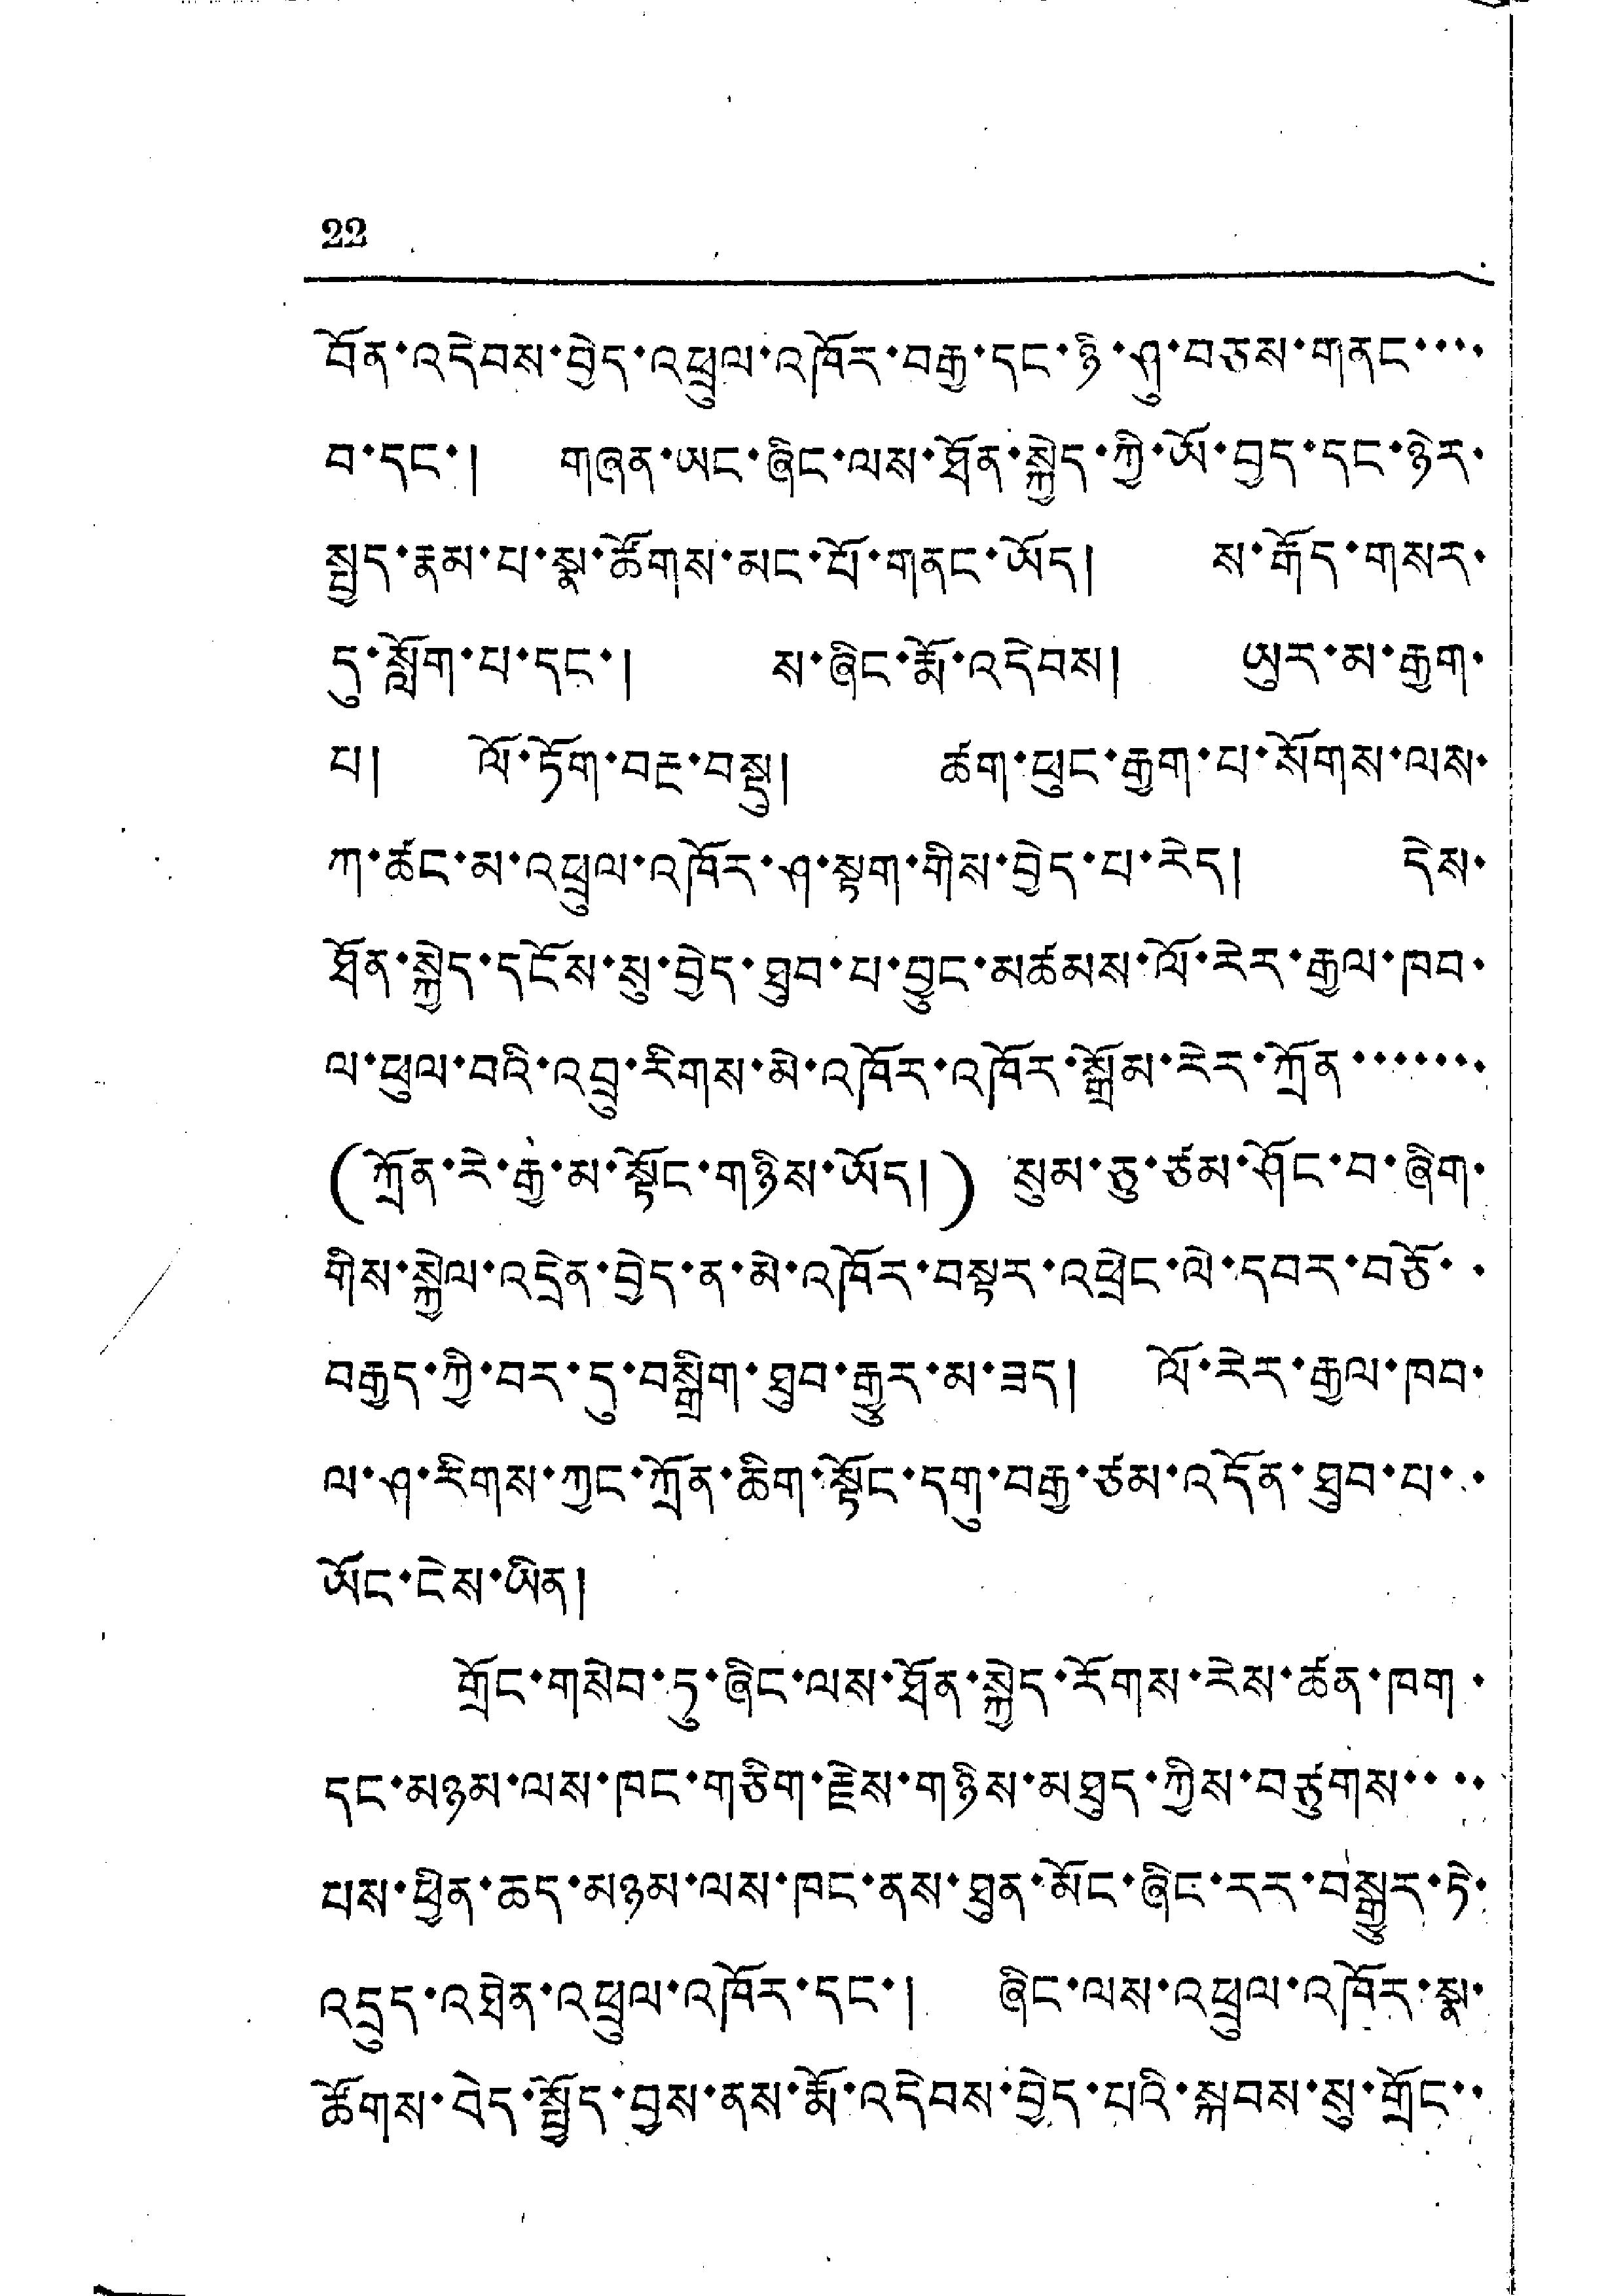22
བོན་འདེབས་བྱེད་འཕྲུལ་འཁོར་བརྒྱ་དང་ཉི་ཤུ་བཅས་གནང་་་་
བ་དང་། གཞན་ཡང་ཞིང་ལས་ཐོན་སྐྱེད་ཀྱི་ཡོ་བྱད་དང་ཉེར་
སྤྱད་རྣམ་པ་སྣ་ཚོགས་མང་པོ་གནང་ཡོད། ས་རྒོད་གསར་
དུ་སློག་པ་དང་། ས་ཞིང་རྨོ་འདེབས། ཡུར་མ་རྒྱུག་
པ། ལོ་ཏོག་བརྔ་བསྟུ། ཚག་ཕུང་རྒྱག་པ་སོགས་ལས་
ཀ་ཚང་མ་འཕྲུལ་འཁོར་ཤ་སྟག་གིས་བྱེད་པ་རེད། དེས་
ཐོན་སྐྱེད་དངོས་སུ་བྱེད་ཐུབ་པ་བྱུང་མཚམས་ལོ་རེར་རྒྱལ་ཁབ་
ལ་ཕུལ་བའི་འབྲུ་རིགས་མེ་འཁོར་འཁོར་སྒྲོམ་རེར་ཀྲོན་་་་་་་
(ཀྲོན་རེ་རྒྱ་མ་སྟོང་གཉིས་ཡོད།) སུམ་ཅུ་ཙམ་ཤོང་བ་ཞིག་
གིས་སྐྱེལ་འདྲེན་བྱེད་ན་མེ་འཁོར་བསྟར་འཕྲེང་ལེ་དབར་བཅོ་་
བརྒྱད་ཀྱི་བར་དུ་བསྒྲིག་ཐུབ་རྒྱུར་མ་ཟད། ལོ་རེར་རྒྱལ་ཁབ་
ལ་ཤ་རིགས་ཀྱང་ཀྲོན་ཆིག་སྟོང་དགུ་བརྒྱ་ཙམ་འདོན་ཐུབ་པ་་
ཡོང་ངེས་ཡིན།
གྲོང་གསེབ་ཏུ་ཞིང་ལས་ཐོན་སྐྱེད་རོགས་རེས་ཚན་ཁག་
དང་མཉམ་ལས་ཁང་གཅིག་རྗེས་གཉིས་མཐུད་ཀྱིས་བཙུགས་་་་
པས་ཕྱིན་ཆད་མཉམ་ལས་ཁང་ནས་ཐུན་མོང་ཞིང་རར་བསྒྱུར་ཏེ་
འདྲུད་འཐེན་འཕྲལ་འཁོར་དང་། ཞིང་ལས་འཕྲུལ་འཁོར་སྣ་
ཚོགས་བྱེད་སྤྱོད་བྱས་ནས་རྨོ་འདེབས་བྱེད་པའི་སྐབས་སུ་གྲོང་་
